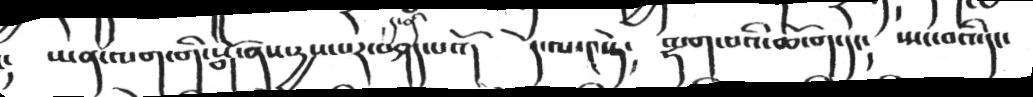ཡན་ལག་གི་སྒོ་ནས་རྱས་པར་བཤད་པའོ།  དེ་ལ་༤སྟེ༴   ལྷག་པའི་ཆོ་ག་དང༴   སྤང་བའི་དང་
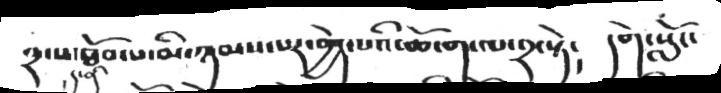༢་པ་ཐོབ་པ་མི་ཉམས་པར་བྱེད་པའི་ཆོ་ག་ལ་༢་སྟེ༴  དགེ་སློང་
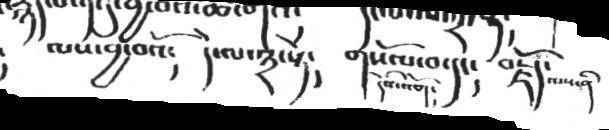ལས་བྱ་བའོ༴  དེ་ལ་༣་སྟེ༴  གསོལ་བ་དང༴  བརྗོད་
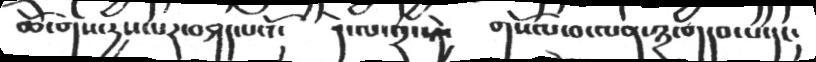ཆོ་གས་རྱད་པར་བཤད་པའོ།  དེ་ལ་༢་སྟེ།  གསོལ་བ་ལན་༢་གདབ་པ་དང།
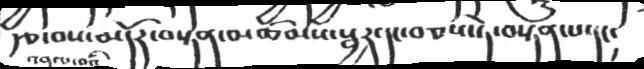རྩ་བས་མདོར་བསྟན་མཚམས་སྦྱར་དང་བཅས་ཏེ་བསྟན་པ་དང༴
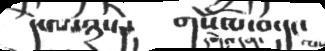དེ་ལ་༣སྟེ༴   གསོལ་བ་དང་
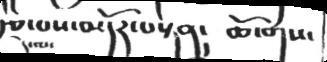རྩ་བས་མདོར་བསྟན།      ཆོ་གས་
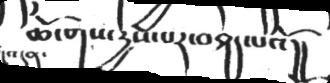ཆོ་གས་རྱས་པར་བཤད་པའོ།།
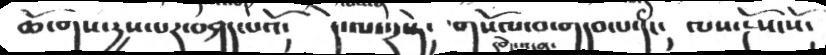ཆོ་གས་རྱས་པར་བཤད་པའོ།    དེ་ལ་༢་སྟེ།      གསོལ་བ་གདབ་པ་དང།   ལས་རྔོས་སོ།
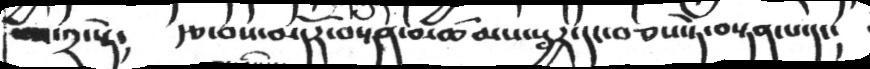༢་སྟེ༴  རྩ་བས་མདོར་བསྟན་མཚམས་སྦྱར་དང་བཅས་ཏེ་བསྟན་པ་དང༴
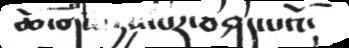ཆོ་གས་རྱས་པར་བཤད་པའོ།
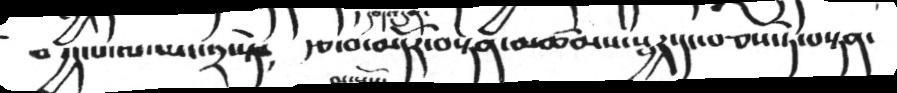བདྱད་པ་ལ་ཡང་༢་སྟེ་     རྩ་བ་མདོར་བསྟན་མཚམས་སྦྱར་དང་བཅས་ཏེ་བསྟན་
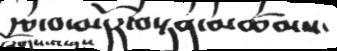རྩ་བ་མདོར་བསྟན་མཚམས་
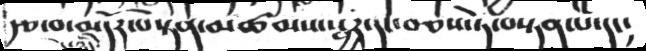རྩ་བ་མདོར་བསྟན་མཚམས་སྦྱར་དང་བཅས་ཏེ་བསྟན་པ་དང༴
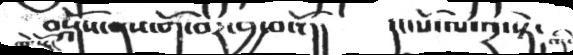བསྐོས་ནས་གོ་བར་བྱ་བའོ།།  དང་པོ་ལ་༢་སྟེ༴
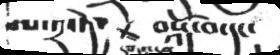ལ་༢་ཏེ༴  བསྐོ་བ་དང༴
